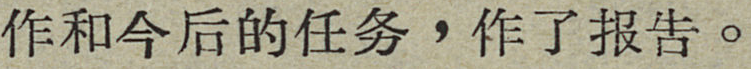作和今后的任务，作了报告。
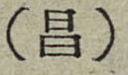（昌）
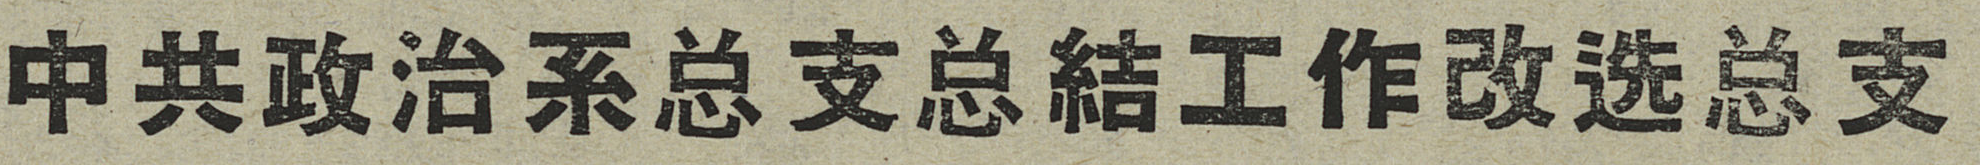中共政治系总支总結作改选总支
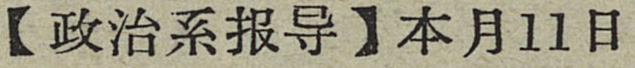【政治系报导】本月11日
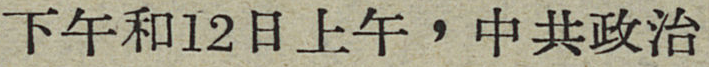下午和12日上午，中共政治
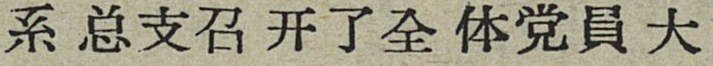系总支召开了全体党員大
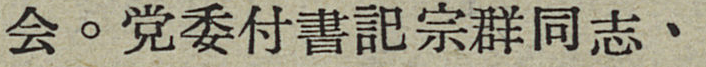会。党委付書記宗群同志、
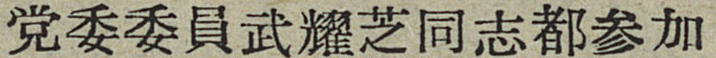党委委員武耀芝同志都参加
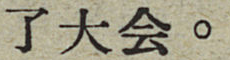了大会。
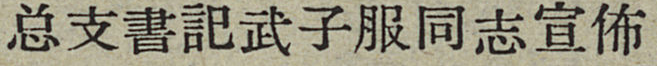总支書記武子服同志宣佈
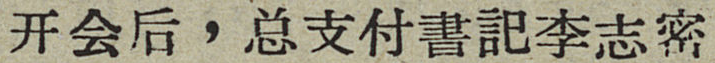开会后，总支付書記李志密
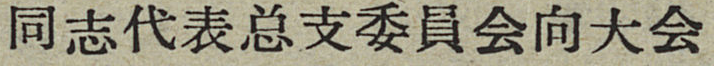同志代表总支委員会向大会
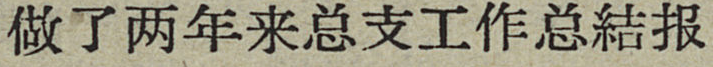做了两年来总支工作总結报
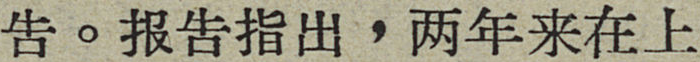告。报告指出，两年来在上
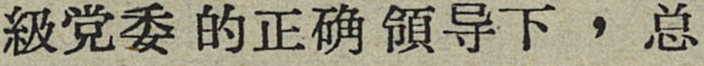級党委的正确領导下，总
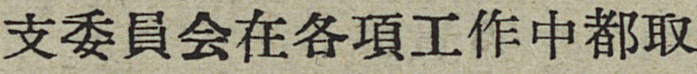支委員会在各項工作中都取
